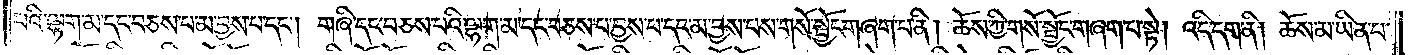པའི་ལྷག་མ་དང་བཅས་པ་མ་བྱས་པ་དང༌། གཞི་དང་བཅས་པའི་ལྷག་མ་དང་བཅས་པ་བྱས་པ་དང་མ་བྱས་པས་གསོ་སྦྱོང་གཞག་པ་ནི། ཆོས་ཀྱི་གསོ་སྦྱོང་གཞག་པ་སྟེ། འདི་དག་ནི། ཆོས་མ་ཡིན་པ་
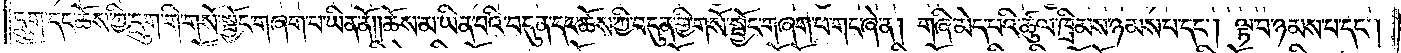དྲུག་དང་ཆོས་ཀྱི་དྲུག་གི་གསོ་སྦྱོང་གཞག་པ་ཡིན་ནོ། །ཆོས་མ་ཡིན་པའི་བདུན་དང་ཆོས་ཀྱི་བདུན་གྱི་གསོ་སྦྱོང་གཞག་པ་གང་ཞེ་ན། གཞི་མེད་པའི་ཚུལ་ཁྲིམས་ཉམས་པ་དང༌། ལྟ་བ་ཉམས་པ་དང༌།
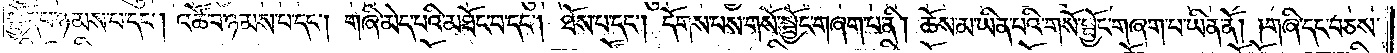སྤྱོད་པ་ཉམས་པ་དང༌། འཚོ་བ་ཉམས་པ་དང༌། གཞི་མེད་པའི་མཐོང་བ་དང༌། ཐོས་པ་དང༌། དོགས་པས་གསོ་སྦྱོང་གཞག་པ་ནི། ཆོས་མ་ཡིན་པའི་གསོ་སྦྱོང་གཞག་པ་ཡིན་ནོ། །གཞི་དང་བཅས་
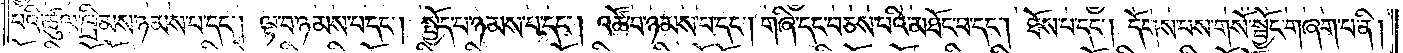པའི་ཚུལ་ཁྲིམས་ཉམས་པ་དང༌། ལྟ་བ་ཉམས་པ་དང༌། སྤྱོད་པ་ཉམས་པ་དང༌། འཚོ་བ་ཉམས་པ་དང༌། གཞི་དང་བཅས་པའི་མཐོང་བ་དང༌། ཐོས་པ་དང༌། དོགས་པས་གསོ་སྦྱོང་གཞག་པ་ནི།
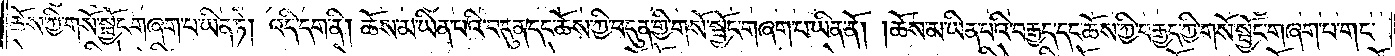ཆོས་ཀྱི་གསོ་སྦྱོང་གཞག་པ་ཡིན་ཏེ། འདི་དག་ནི། ཆོས་མ་ཡིན་པའི་བདུན་དང་ཆོས་ཀྱི་བདུན་གྱི་གསོ་སྦྱོང་གཞག་པ་ཡིན་ནོ། །ཆོས་མ་ཡིན་པའི་བརྒྱད་དང་ཆོས་ཀྱི་བརྒྱད་ཀྱི་གསོ་སྦྱོང་གཞག་པ་གང་
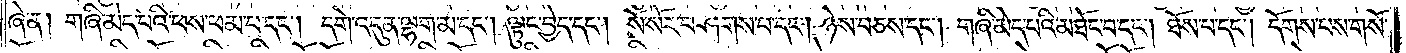ཞེ་ན། གཞི་མེད་པའི་ཕས་ཕམ་པ་དང༌། དགེ་འདུན་ལྷག་མ་དང༌། ལྟུང་བྱེད་དང༌། སོ་སོར་བཤགས་པ་དང༌། ཉེས་བཅས་དང༌། གཞི་མེད་པའི་མཐོང་བ་དང༌། ཐོས་པ་དང༌། དོགས་པས་གསོ་
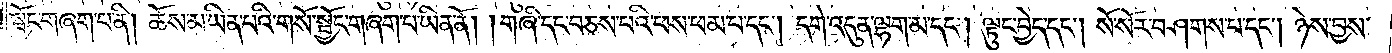སྦྱོང་གཞག་པ་ནི། ཆོས་མ་ཡིན་པའི་གསོ་སྦྱོང་གཞག་པ་ཡིན་ནོ། །གཞི་དང་བཅས་པའི་ཕས་ཕམ་པ་དང༌། དགེ་འདུན་ལྷག་མ་དང༌། ལྟུང་བྱེད་དང༌། སོ་སོར་བཤགས་པ་དང༌། ཉེས་བྱས་
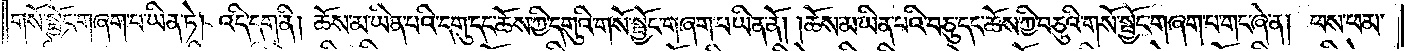གསོ་སྦྱོང་གཞག་པ་ཡིན་ཏེ། འདི་དག་ནི། ཆོས་མ་ཡིན་པའི་དགུ་དང་ཆོས་ཀྱི་དགུའི་གསོ་སྦྱོང་གཞག་པ་ཡིན་ནོ། །ཆོས་མ་ཡིན་པའི་བཅུ་དང་ཆོས་ཀྱི་བཅུའི་གསོ་སྦྱོང་གཞག་པ་གང་ཞེ་ན། ཕས་ཕམ་
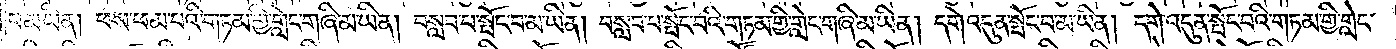པ་མ་ཡིན། ཕས་ཕམ་པའི་གཏམ་གྱི་གླེང་གཞི་མ་ཡིན། བསླབ་པ་སྤོང་བ་མ་ཡིན། བསླབ་པ་སྤོང་བའི་གཏམ་གྱི་གླེང་གཞི་མ་ཡིན། དགེ་འདུན་སྤོང་བ་མ་ཡིན། དགེ་འདུན་སྤོང་བའི་གཏམ་གྱི་གླེང་
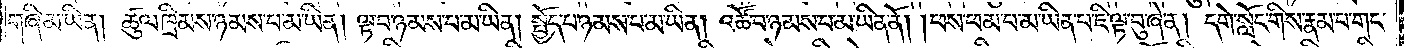གཞི་མ་ཡིན། ཚུལ་ཁྲིམས་ཉམས་པ་མ་ཡིན། ལྟ་བ་ཉམས་པ་མ་ཡིན། སྤྱོད་པ་ཉམས་པ་མ་ཡིན། འཚོ་བ་ཉམས་པ་མ་ཡིན་ནོ། །ཕས་ཕམ་པ་མ་ཡིན་པ་ཇི་ལྟ་བུ་ཞེ་ན། དགེ་སློང་གིས་རྣམ་པ་གང་
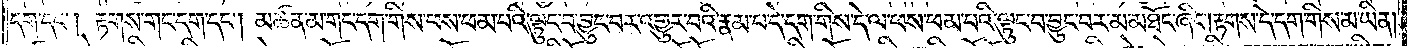དག་དང༌། རྟགས་གང་དག་དང༌། མཚན་མ་གང་དག་གིས་ཕས་ཕམ་པའི་ལྟུང་བ་བྱུང་བར་འགྱུར་བའི་རྣམ་པ་དེ་དག་གིས་དེ་ལ་ཕས་ཕམ་པའི་ལྟུང་བ་བྱུང་བར་མ་མཐོང་ཞིང༌། རྟགས་དེ་དག་གིས་མ་ཡིན།
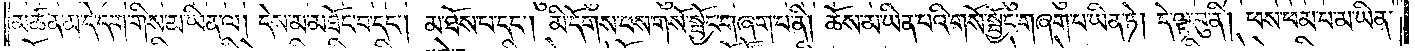མཚན་མ་དེ་དག་གིས་མ་ཡིན་ལ། དེས་མ་མཐོང་བ་དང༌། མ་ཐོས་པ་དང༌། མི་དོགས་པས་གསོ་སྦྱོང་གཞག་པ་ནི། ཆོས་མ་ཡིན་པའི་གསོ་སྦྱོང་གཞག་པ་ཡིན་ཏེ། དེ་ལྟ་བུ་ནི། ཕས་ཕམ་པ་མ་ཡིན་
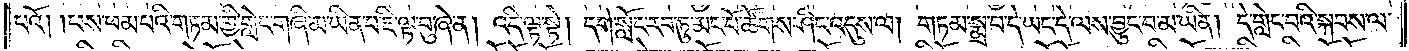པའོ། །ཕས་ཕམ་པའི་གཏམ་གྱི་གླེང་གཞི་མ་ཡིན་པ་ཇི་ལྟ་བུ་ཞེ་ན། འདི་ལྟ་སྟེ། དགེ་སློང་རབ་ཏུ་མང་པོ་ཚོགས་ཤིང་འདུས་ལ། གཏམ་སྨྲ་བ་དེ་ཡང་དེ་ལས་བྱུང་བ་མ་ཡིན། དེ་གླེང་བའི་སྐབས་ལ་
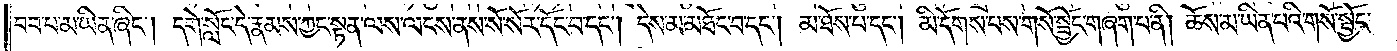བབ་པ་མ་ཡིན་ཞིང༌། དགེ་སློང་དེ་རྣམས་ཀྱང་སྟན་ལས་ལངས་ནས་སོ་སོར་དོང་བ་དང༌། དེས་མ་མཐོང་བ་དང༌། མ་ཐོས་པ་དང༌། མི་དོགས་པས་གསོ་སྦྱོང་གཞག་པ་ནི། ཆོས་མ་ཡིན་པའི་གསོ་སྦྱོང་
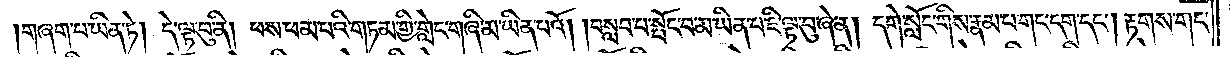།གཞག་པ་ཡིན་ཏེ། དེ་ལྟ་བུ་ནི། ཕས་ཕམ་པའི་གཏམ་གྱི་གླེང་གཞི་མ་ཡིན་པའོ། །བསླབ་པ་སྤོང་བ་མ་ཡིན་པ་ཇི་ལྟ་བུ་ཞེ་ན། དགེ་སློང་གིས་རྣམ་པ་གང་དག་དང༌། རྟགས་གང་
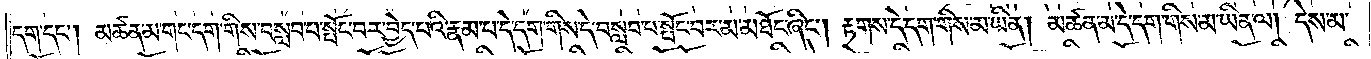དག་དང༌། མཚན་མ་གང་དག་གིས་བསླབ་པ་སྤོང་བར་བྱེད་པའི་རྣམ་པ་དེ་དག་གིས་དེ་བསླབ་པ་སྤོང་བར་མ་མཐོང་ཞིང༌། རྟགས་དེ་དག་གིས་མ་ཡིན། མཚན་མ་དེ་དག་གིས་མ་ཡིན་ལ། དེས་མ་
